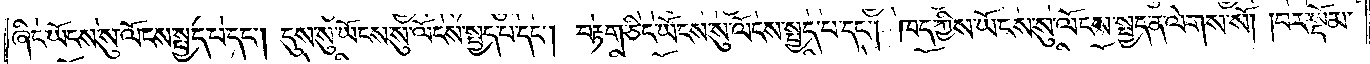ཞིང་ཡོངས་སུ་ལོངས་སྤྱད་པ་དང༌། དུས་སུ་ཡོངས་སུ་ལོངས་སྤྱད་པ་དང༌། བརྟག་ཅིང་ཡོངས་སུ་ལོངས་སྤྱད་པ་དང༌། ཁད་ཀྱིས་ཡོངས་སུ་ལོངས་སྤྱད་ན་ལེགས་སོ། །བར་སྡོམ་
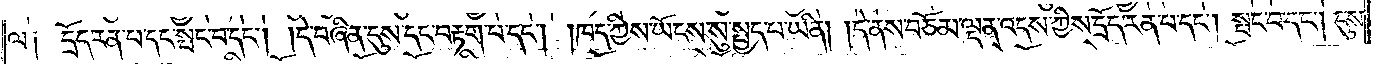ལ༑ དྲོད་རན་པ་དང་སྤང་བ་དང༌། །དེ་བཞིན་དུས་དང་བརྟག་པ་དང༌། །ཁད་ཀྱིས་ཡོངས་སུ་སྤྱད་པ་ཡིན། །དེ་ནས་བཅོམ་ལྡན་འདས་ཀྱིས་དྲོད་རན་པ་དང༌། སྤང་བ་དང༌། དུས་
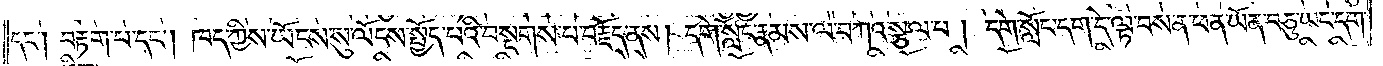དང༌། བརྟག་པ་དང༌། ཁད་ཀྱིས་ཡོངས་སུ་ལོངས་སྤྱོད་པའི་བསྔགས་པ་བརྗོད་ནས། དགེ་སློང་རྣམས་ལ་བཀའ་སྩལ་པ། དགེ་སློང་དག་དེ་ལྟ་བས་ན་ཕན་ཡོན་བཅུ་ཡང་དག་
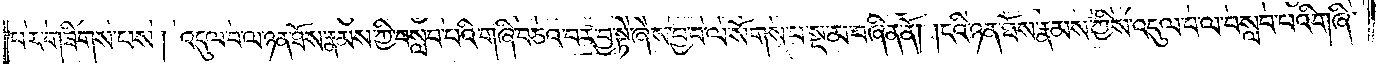པར་གཟིགས་པས། འདུལ་བ་ལ་ཉན་ཐོས་རྣམས་ཀྱི་བསླབ་པའི་གཞི་བཅའ་བར་བྱ་སྟེ་ཞེས་བྱ་བ་ལ་སོགས་པ་སྔ་མ་བཞིན་ནོ། །ངའི་ཉན་ཐོས་རྣམས་ཀྱིས་འདུལ་བ་ལ་བསླབ་པའི་གཞི་
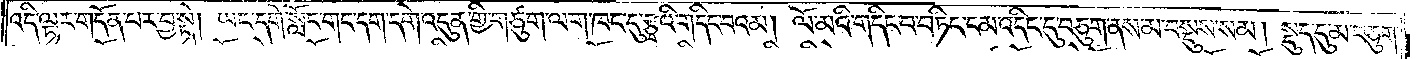འདི་ལྟར་གདོན་པར་བྱ་སྟེ། ཡང་དགེ་སློང་གང་དག་དགེ་འདུན་གྱི་གཙུག་ལག་ཁང་དུ་རྩྭའི་གདིང་བའམ། ལོ་མའི་གདིང་བ་བཏིང་ངམ་འདིང་དུ་བཅུག་ནས་མ་བསྡུས་སམ། སྡུད་དུ་མ་བཅུག་
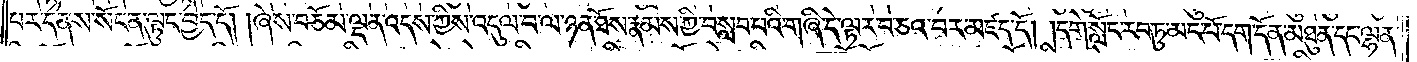པར་དེ་ནས་སོང་ན་ལྟུང་བྱེད་དོ། །ཞེས་བཅོམ་ལྡན་འདས་ཀྱིས་འདུལ་བ་ལ་ཉན་ཐོས་རྣམས་ཀྱི་བསླབ་པའི་གཞི་དེ་ལྟར་བཅའ་བར་མཛད་དོ། །དགེ་སློང་རབ་ཏུ་མང་པོ་དག་དོན་མཐུན་དང་ལྷན་
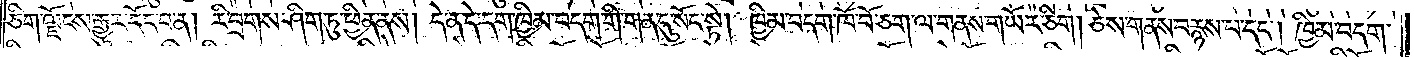ཅིག་ལྗོངས་རྒྱུར་དོང་བ་ན། རི་བྲགས་ཤིག་ཏུ་ཕྱིན་ནས། དེ་ན་དེ་དག་ཁྱིམ་བདག་གི་གན་དུ་སོང་སྟེ། ཁྱིམ་བདག་ཁོ་བོ་ཅག་ལ་གནས་གཡོར་ཅིག། ཅེས་གནས་བརྙས་པ་དང༌། ཁྱིམ་བདག་
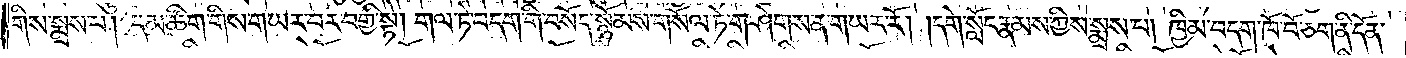གིས་སྨྲས་པ། དམ་ཚིག་གིས་གཡར་བར་བགྱི་སྟེ། གལ་ཏེ་བདག་གི་བསོད་སྙོམས་གསོལ་ཏེ་གཤེགས་ན་གཡར་རོ། །དགེ་སློང་རྣམས་ཀྱིས་སྨྲས་པ། ཁྱིམ་བདག་ཁོ་བོ་ཅག་ནི་དོན་
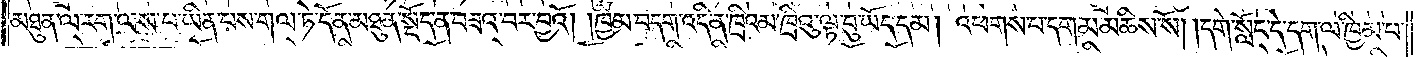མཐུན་ལ་རག་ལས་པ་ཡིན་པས་གལ་ཏེ་དོན་མཐུན་སྡོད་ན་བཟའ་བར་བྱའོ། །ཁྱིམ་བདག་འདི་ན་ཁྲིའམ་ཁྲིའུ་ལྟ་བུ་ཡོད་དམ། འཕགས་པ་དག་མ་མཆིས་སོ། །དགེ་སློང་དེ་དག་ལ་ཁྱིམ་པ་
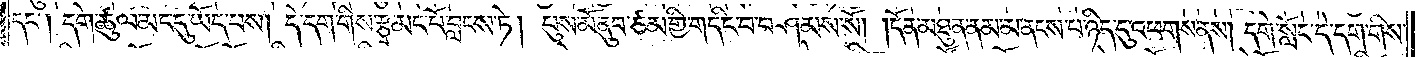དང༌། དགེ་ཚུལ་མང་དུ་ཡོད་པས། དེ་དག་གིས་རྩྭ་མང་པོ་བླངས་ཏེ། པུས་མོ་ནུབ་ཙམ་གྱི་གདིང་བ་བཤམས་སོ། །དོན་མཐུན་ནམ་མ་ནངས་པ་ཉིད་དུ་འཕགས་ནས། དགེ་སློང་དེ་དག་གིས་
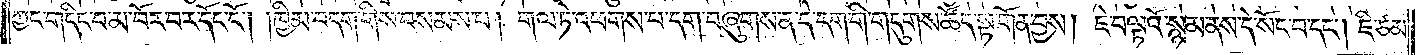ཀྱང་གདིང་བ་མ་བོར་བར་དོང་ངོ༌། །ཁྱིམ་བདག་གིས་བསམས་པ། གལ་ཏེ་འཕགས་པ་དག་བཞུགས་ན་དེ་དག་གི་གདུགས་ཚོད་སྟ་གོན་བྱས། ཇེ་བལྟའོ་སྙམ་ནས་དེ་སོང་བ་དང༌། ཇི་ཙམ་
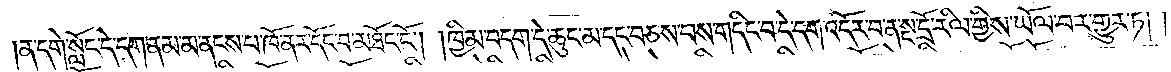ན་དགེ་སློང་དེ་དག་ནམ་མ་ནངས་པ་ཁོ་ནར་དོང་བ་མཐོང་ངོ༌། །ཁྱིམ་བདག་དེ་ཆུང་མ་དང་བཅས་པས་གདིང་བ་དེ་དག་འདོར་བ་ན་སྔ་དྲོ་རིལ་གྱིས་ཡོལ་བར་གྱུར་ཏོ། །
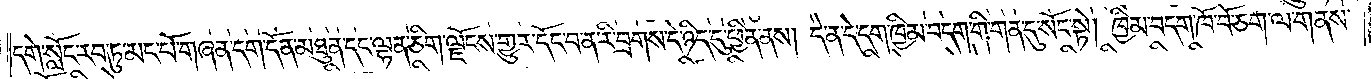དགེ་སློང་རབ་ཏུ་མང་པོ་གཞན་དག་དོན་མཐུན་དང་ལྷན་ཅིག་ལྗོངས་གྱུར་དོང་བ་ན་རི་བྲགས་དེ་ཉིད་དུ་ཕྱིན་ནས། དེ་ན་དེ་དག་ཁྱིམ་བདག་གི་གན་དུ་སོང་སྟེ། ཁྱིམ་བདག་ཁོ་བོ་ཅག་ལ་གནས་
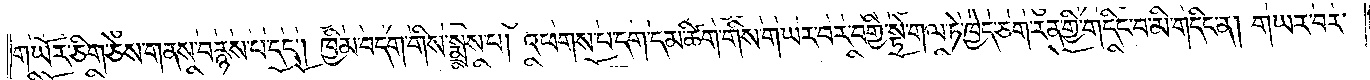གཡོར་ཅིག་ཅེས་གནས་བརྙས་པ་དང༌། ཁྱིམ་བདག་གིས་སྨྲས་པ། འཕགས་པ་དག་དམ་ཚིག་གིས་གཡར་བར་བགྱི་སྟེ་གལ་ཏེ་ཁྱེད་ཅག་རན་གྱི་གདིང་བ་མི་གདིང་ན། གཡར་བར་
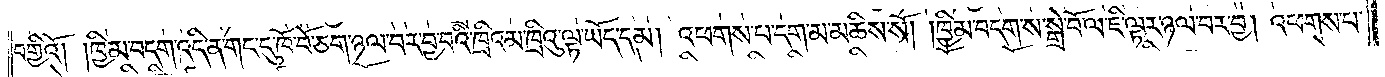བགྱིའོ། །ཁྱིམ་བདག་འདི་ན་གང་དུ་ཁོ་བོ་ཅག་ཉལ་བར་བྱ་བའི་ཁྲིའམ་ཁྲིའུ་ལྟ་ཡོད་དམ། འཕགས་པ་དག་མ་མཆིས་སོ། །ཁྱིམ་བདག་ས་སྒྲེ་བོ་ལ་ཇི་ལྟར་ཉལ་བར་བྱ། འཕགས་པ་
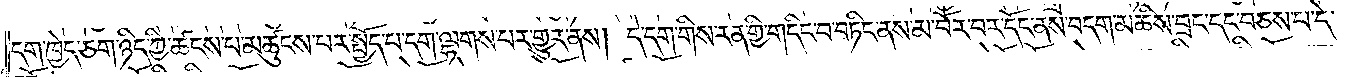དག་ཁྱེད་ཅག་ཉིད་ཀྱི་ཚངས་པ་མཚུངས་པར་སྤྱོད་པ་དག་ལྷགས་པར་གྱུར་ནས། དེ་དག་གིས་རན་གྱི་གདིང་བ་བཏིང་ནས་མ་བོར་བར་དོང་ནས་བདག་མཆིས་བྲང་དང་བཅས་པ་དེ་
